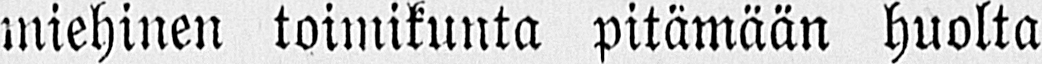miehinen toimikunta pitämään huolta
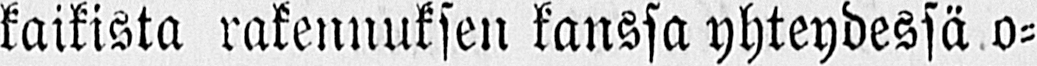kaikista rakennuksen kanssa yhteydessä o-
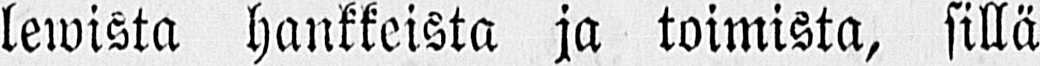lewista hankkeista ja toimista, sillä
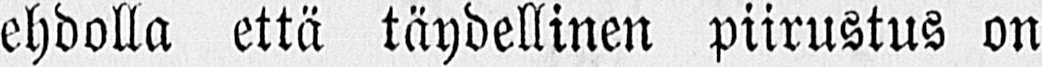ehdolla että täydellinen piirustus on
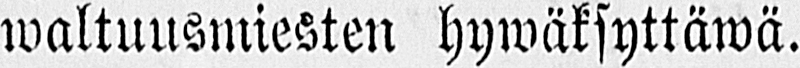waltuusmiesten hywäksyttäwä.
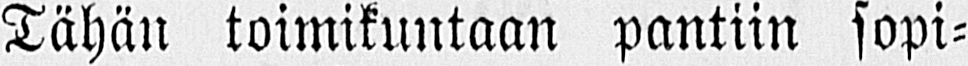Tähän toimikuntaan pantiin sopi-
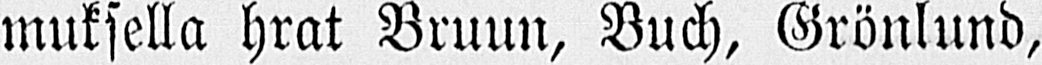muksella hrat Bruun, Buch, Grönlund,
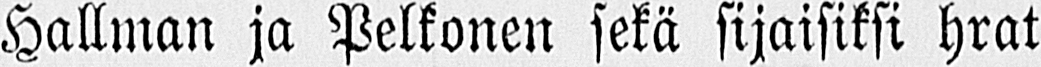Hallman ja Pelkonen sekä sijaisiksi hrat
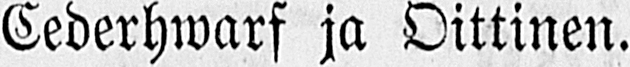Cederhwarf ja Oittinen.
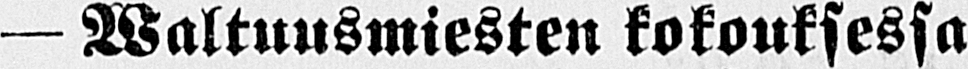— Waltuusmiesten kokouksessa
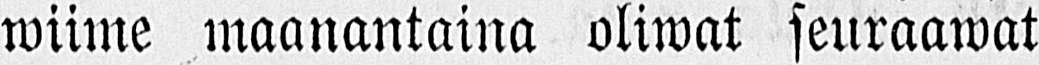wiime maanantaina oliwat seuraawat
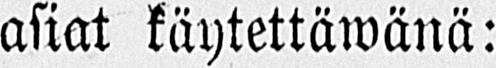asiat käytettäwänä:
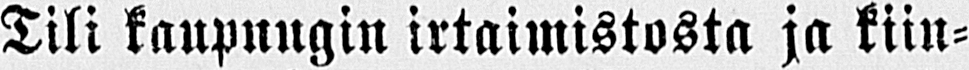Tili kaupungin irtaimistosta ja kiin-
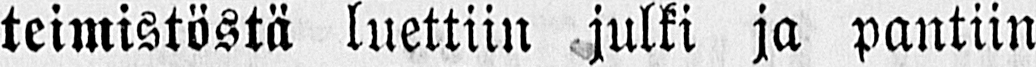teimistöstä luettiin julki ja pantiin
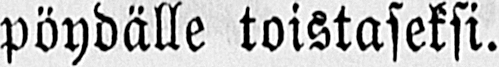pöydälle toistaseksi.
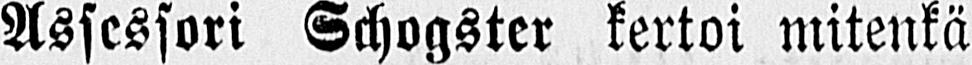Assessori Schogster kertoi mitenkä
